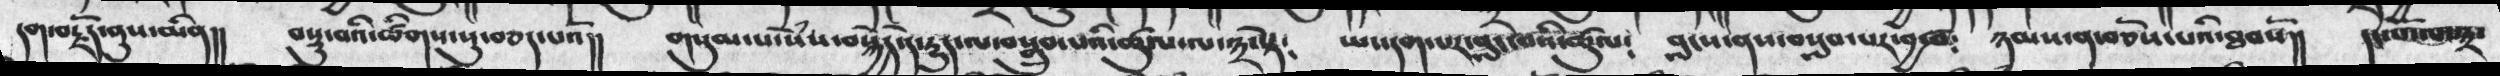དག་བརྗོད་ནུས་མིན།།  བསྡུ་བའི་ཚིགས་སུ་བཅད་པའོ།།  གསུམ་པ་སེཾས་བསྐྱེད་དེ་རྱུད་ལ་བསྒྲུབ་པའི་ཚུལ་ལ་༣་སྟེ༴  ཡང་དག་པར་བླང་བའི་ཚུལ༴  བླངས་ནས་བསླབ་པར་བྱ་བ༴  ཉམས་ན་བཅོས་པའི་ཐབསོ།།  དང་པོ་ལ་༣་
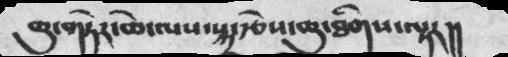ཆུ་གཏེར་ཆེ་ལས་སྐྲ་རྩེས་ཆུ་ཐིགས་ལྟར།།
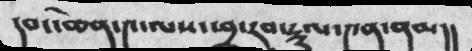དབང་ཆེན་༤་ལས་ཕྲ་རབ་སྡུལ་༤ན་ནམ།།
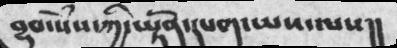བྱུབ་སེཾས་ཀྱི་ཡྟོན་དཔག་ཡས་པས།།
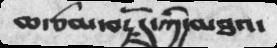ཆ་ཙམ་བརྗོད་ཀྱི་མཐའ་
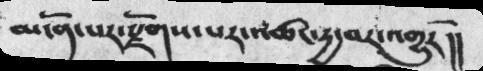མངོན་པར་རྫོགས་པར་འཚང་དྱ་བར་འགྱུརོ།།
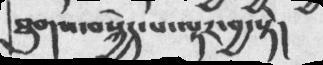ཐུགས་བསྐྱེད་པ་ལྟར་བྱ་སྟེ།
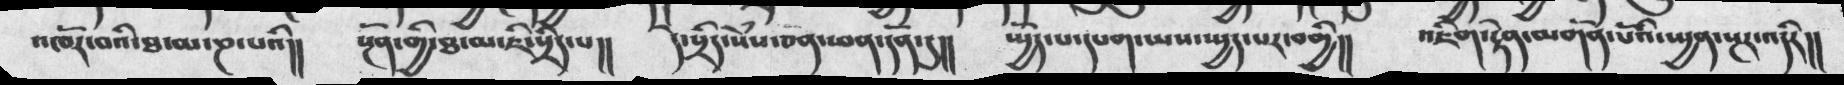འཁོར་བའི་ཐ་མ་ཎ་པའི།།  སྔོན་གྱི་ཐ་མ་ཇི་སྲིད་པ།།  དེ་སྲིད་སེཾས་ཅན་ཕན་དོན་དུ།།  སྤྱོད་པ་དཔག་ཡས་སྤྱད་པར་བགྱི།།  འཇིག་རྟེན་མགོན་པོའི་སྤྱན་སྔར་འདིར།།
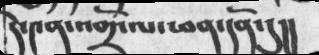དེ་༤ན་འགྲོ་ལ་ཕན་དོན་དུ།།
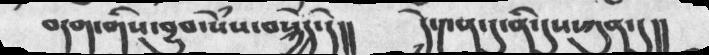བདག་གིས་བྱུབ་སེཾས་བསྐྱེད་དེ།།  དེ་༤ན་དུ་ནི་དུས་ཀུན་དུ།།
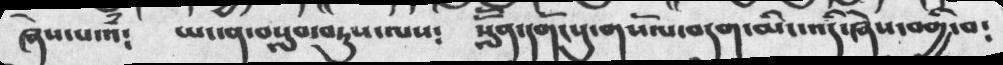ཞེས་པ་འཾ༴   ཡང་ན་བསླབ་བཏུས་ལས༴  སློོན་དགོངསུ་གསོལ་བདག་མིང་འདི་ཞེས་བགྱི་བ༴
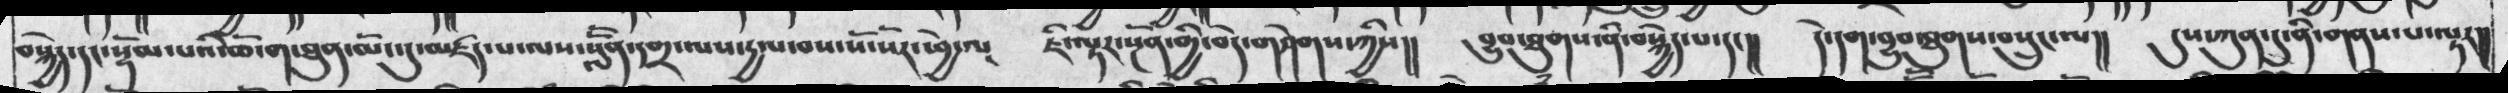བསྐྱེད་དང་སྡོམ་པའི་ཆོ་ག་་ཐུན་མོང་དུ་མཛད་པ་ལས་སློོན་དགྲ་ལས་དྱལ་བས་སོ་སོར་ཕྱེ་ལ  ཇི་ལྟར་སྔོན་གྱི་བདེ་གཤེགས་ཀྱིས།།   བྱུབ་ཐུགས་ནི་བསྐྱེད་པ་དང།།  དེ་དག་བྱུབ་ཐུགས་བསྲུང་ལ།།  དུས་ཀུན་དུ་ནི་གནས་པ་ལྟར།།
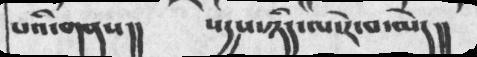པའི་གནས།།   སདྱས་ཉིད་ལ་རེ་བ་མེད།།
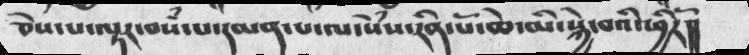ཅེས་པ་ལྟར་བསཾ་པ་དམན་པ་ལ་སེཾས་རིན་པོ་ཆེ་མི་སྐྱེ་བའི་ཕྱིརོ།།
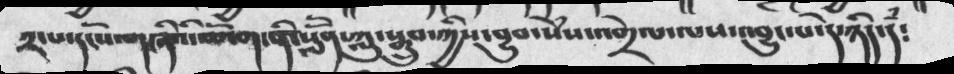༢་པ་དངོས་གཞིའི་ཆོ་ག་ནི་སློོན་ཀླུ་སྒྲུབ་ཀྱིས་བྱུབ་སེཾས་འགྲེལ་ལས་འབྱུང་པ་དེ་ཉིད་དཾ༴
